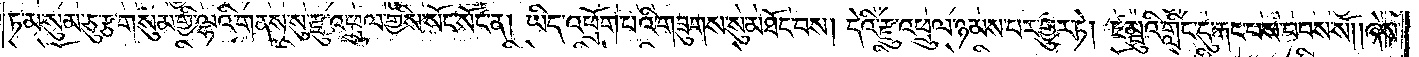ཏ་མ་སུམ་ཅུ་རྩ་གསུམ་གྱི་ལྷའི་གནས་སུ་རྫུ་འཕྲུལ་གྱིས་སོང་སོང་ན། ཡིད་འཕྲོག་པའི་གཟུགས་སུ་མཐོང་བས། དེའི་རྫུ་འཕྲུལ་ཉམས་པར་གྱུར་ཏེ། ཛམྦུའི་གླིང་དུ་རྐང་པས་བབས་སོ། །ཞེས་
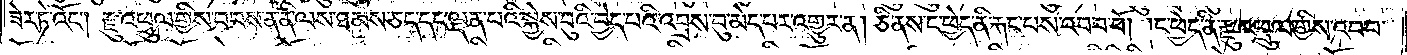ཟེར་ཏེ་འོང༌། རྫུ་འཕྲུལ་གྱིས་བབས་ན་ནི་ལས་ཐམས་ཅད་དང་ལྡན་པའི་སྐྱེས་བུའི་བྱེད་པའི་འབྲས་བུ་མེད་པར་འགྱུར་ན། ཅི་ནས་ང་ཕྱེད་ནི་རྐང་པས་འབབ་བོ། །ང་ཕྱེད་ནི་རྫུ་འཕྲུལ་གྱིས་འབབ་
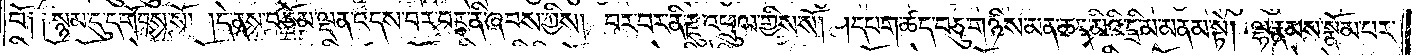བོ༑ ༑སྙམ་དུ་དགོངས་སོ། །དེ་ནས་བཅོམ་ལྡན་འདས་བར་བར་ནི་ཞབས་ཀྱིས། བར་བར་ནི་རྫུ་འཕྲུལ་གྱིས་སོ། །དཔག་ཚད་བཅུ་གཉིས་མན་ཆད་མིའི་དྲི་མ་མནམ་སྟེ། ལྷ་རྣམས་སྣོམ་པར་
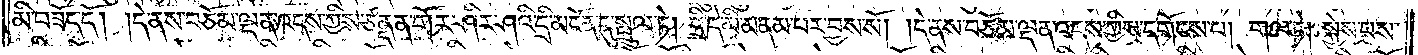མི་བཟོད་དོ། །དེ་ནས་བཅོམ་ལྡན་འདས་ཀྱིས་ཙནྡན་གོར་ཤིར་ཤའི་དྲི་མངོན་དུ་སྤྲུལ་ཏེ། དྲི་དེ་མི་མནམ་པར་བྱས་སོ། །དེ་ནས་བཅོམ་ལྡན་འདས་ཀྱིས་དགོངས་པ། གལ་ཏེ། སྐྱེས་པས་
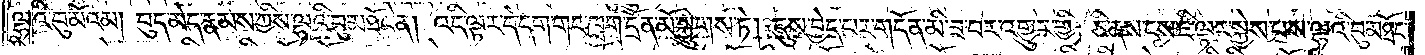ལྷའི་བུ་མོའམ། བུད་མེད་རྣམས་ཀྱིས་ལྷའི་བུ་མཐོང་ན། འདི་ལྟར་དེ་དག་གང་ཁྲག་དྲོན་མོ་སྐྱུགས་ཏེ། དུས་བྱེད་པར་གདོན་མི་ཟ་བར་འགྱུར་གྱི། ཅི་ནས་ངས་ཇི་ལྟར་སྐྱེས་པས་ལྷའི་བུ་མཐོང་
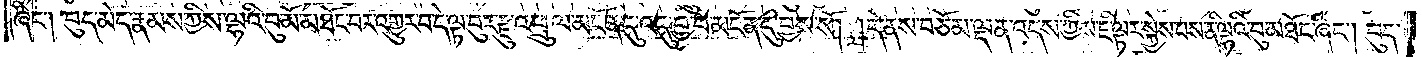ཞིང༌། བུད་མེད་རྣམས་ཀྱིས་ལྷའི་བུ་མོ་མཐོང་བར་འགྱུར་བདེ་ལྟ་བུར་རྫུ་འཕྲུལ་མངོན་དུ་འདུ་བྱ་བ་མངོན་དུ་བྱས་སོ། །དེ་ནས་བཅོམ་ལྡན་འདས་ཀྱིས་ཇི་ལྟར་སྐྱེས་པས་ནི་ལྷའི་བུ་མཐོང་ཞིང༌། བུད་
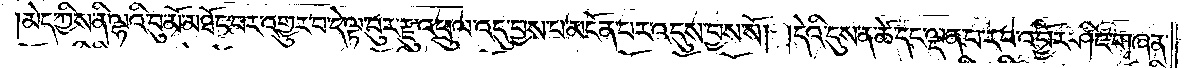མེད་ཀྱིས་ནི་ལྷའི་བུ་མོ་མཐོང་བར་འགྱུར་བ་དེ་ལྟ་བུར་རྫུ་འཕྲུལ་འདུ་བྱས་པ་མངོན་པར་འདུས་བྱས་སོ། །དེའི་དུས་ན་ཚེ་དང་ལྡན་པ་རབ་འབྱོར་ཤིང་གཞན་
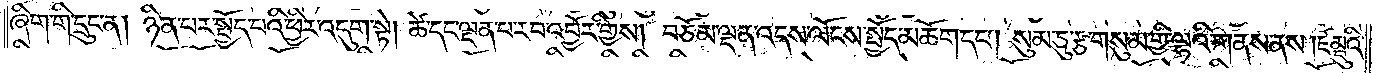ཞིག་གི་དྲུང་ན། ཉིན་པར་སྤྱོད་པའི་ཕྱིར་འདུག་སྟེ། ཚེ་དང་ལྡན་པ་རབ་འབྱོར་གྱིས། བཅོམ་ལྡན་འདས་ལོངས་སྤྱོད་མཆོག་དང༌། སུམ་ཅུ་རྩ་གསུམ་གྱི་ལྷའི་གནས་ནས། ཛམྦུའི་
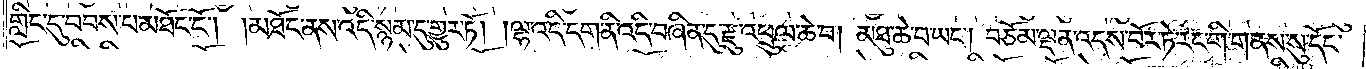གླིང་དུ་བབས་པ་མཐོང་ངོ༌། །མཐོང་ནས་འདི་སྙམ་དུ་གྱུར་ཏོ། །ལྷ་འདི་དག་ནི་འདི་བཞིན་དུ་རྫུ་འཕྲུལ་ཆེ་བ། མཐུ་ཆེ་བ་ཡང༌། བཅོམ་ལྡན་འདས་བོར་ཏེ་རང་གི་གནས་སུ་དོང་
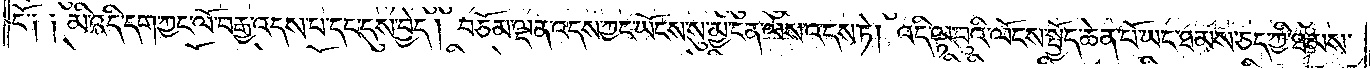ངོ༑ ༑མི་འདི་དག་ཀྱང་ལོ་བརྒྱ་འདས་པ་དང་དུས་བྱེད། བཅོམ་ལྡན་འདས་ཀྱང་ཡོངས་སུ་མྱ་ངན་ལས་འདས་ཏེ། འདི་ལྟ་བུའི་ལོངས་སྤྱོད་ཆེན་པོ་ཡང་ཐམས་ཅད་ཀྱི་ཐམས་
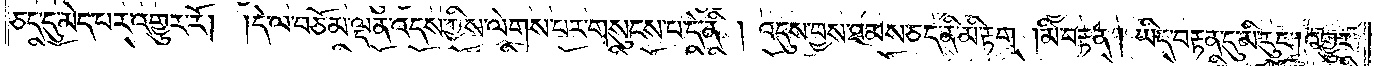ཅད་དུ་མེད་པར་འགྱུར་རོ། །དེ་ལ་བཅོམ་ལྡན་འདས་ཀྱིས་ལེགས་པར་གསུངས་པ་དེ་ནི། འདུས་བྱས་ཐམས་ཅད་ནི་མི་རྟག །མི་བརྟན། ཡིད་བརྟན་དུ་མི་རུང༌། འགྱུར་
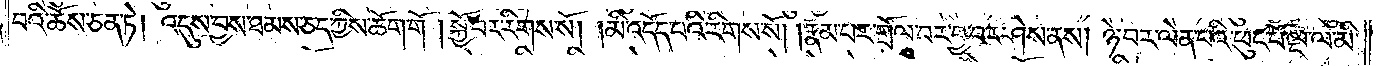བའི་ཆོས་ཅན་ཏེ། འདུས་བྱས་ཐམས་ཅད་ཀྱིས་ཆོག་གོ། སྐྱོ་བར་རིགས་སོ། །མི་འདོད་པའི་རིགས་སོ། །རྣམ་པར་གྲོལ་བར་བྱ་བར་ཤེས་ནས། ཉེ་བར་ལེན་པའི་ཕུང་པོ་ལྔ་ལ་མི་
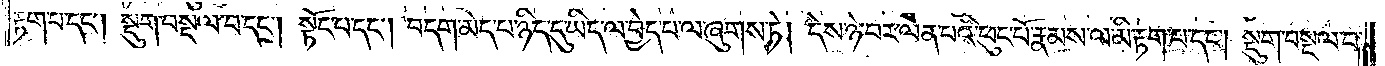རྟག་པ་དང༌། སྡུག་བསྔལ་བ་དང༌། སྟོང་པ་དང༌། བདག་མེད་པ་ཉིད་དུ་ཡིད་ལ་བྱེད་པ་ལ་ཞུགས་ཏེ། དེས་ཉེ་བར་ལེན་པའི་ཕུང་པོ་རྣམས་ལ་མི་རྟག་པ་དང༌། སྡུག་བསྔལ་བ་
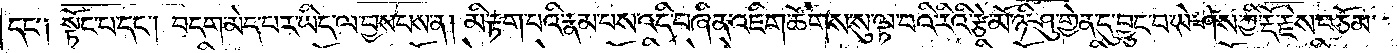དང༌། སྟོང་པ་དང༌། བདག་མེད་པར་ཡིད་ལ་བྱས་པས་ན། མི་རྟག་པའི་རྣམ་པས་འདི་བཞིན་འཇིག་ཚོགས་སུ་ལྟ་བའི་རིའི་རྩེ་མོ་ཉི་ཤུ་གྱེན་དུ་བྱུང་བ་ཡེ་ཤེས་ཀྱི་རྡོ་རྗེས་བཅོམ་
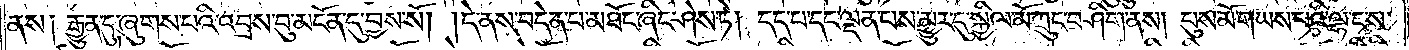ནས། རྒྱུན་དུ་ཞུགས་པའི་འབྲས་བུ་མངོན་དུ་བྱས་སོ། །དེ་ནས་བདེན་པ་མཐོང་ཞིང་ཤེས་ཏེ། དད་པ་དང་ལྡན་པས་མྱུར་དུ་སྐྱིལ་མོ་ཀྲུང་བཤིག་ནས། པུས་མོ་གཡས་པའི་ལྷ་ང་ས་
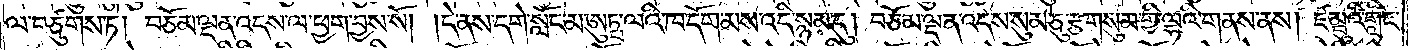ལ་བཙུགས་ཏེ། བཅོམ་ལྡན་འདས་ལ་ཕྱག་བྱས་སོ། །དེ་ནས་དགེ་སློང་མ་ཨུཏྤ་ལའི་ཁ་དོག་མས་འདི་སྙམ་དུ། བཅོམ་ལྡན་འདས་སུམ་ཅུ་རྩ་གསུམ་གྱི་ལྷའི་གནས་ནས། ཛམྦུའི་གླིང་
